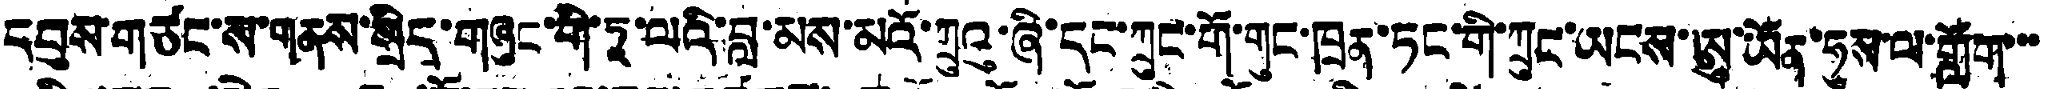དབུས་གཙང་ས་གནས་སྲིད་གཞུང་གི་ཏཱ་ལའི་བླ་མས་མའོ་ཀྲུའུ་ཞི་དང་ཀྲུང་གོ་གུང་ཁྲན་ཏང་གི་ཀྲུང་ཡངས་ཨུ་ཡོན་ཧུས་ལ་གློག་་་
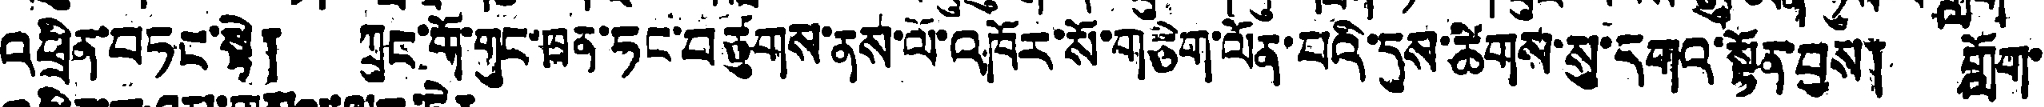འཕྲིན་བཏང་སྟེ། ཀྲུང་གོ་གུང་ཁྲན་ཏང་བཙུགས་ནས་ལོ་འཁོར་སོ་གཅིག་ལོན་པའི་དུས་ཚིགས་སུ་དགའ་སྟོན་བྱས། གློག་
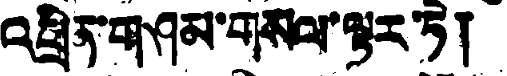འཕྲིན་གཤམ་གསལ་ལྟར་ཏེ།
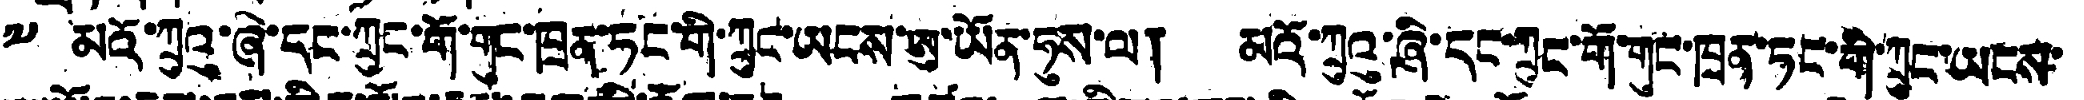༸ མའོ་ཀྲུའུ་ཞི་དང་ཀྲུང་གོ་གུང་ཁྲན་ཏང་གི་ཀྲུང་ཡངས་ཨུ་ཡོན་ཧུས་ལ། མའོ་ཀྲུའུ་ཞི་དང་ཀྲུང་གོ་གུང་ཁྲན་ཏང་གི་ཀྲུང་ཡངས་
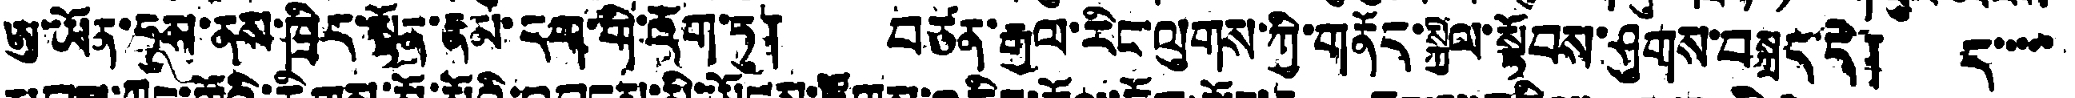ཨུ་ཡོན་ཧུས་ནས་ཁྲིད་སྟོན་རྣམ་དག་གི་འོག་ཏུ། བཙན་རྒྱལ་རིང་ལུགས་ཀྱི་གནོད་སྐྱེལ་སྟོབས་ཤུགས་བསྐྲད་དེ། ད་་་་་་
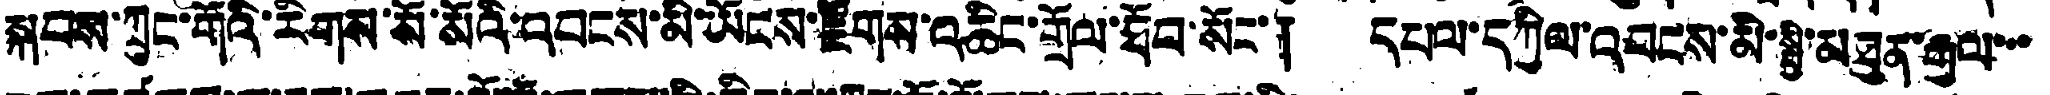སྐབས་ཀྲུང་གོའི་རིགས་སོ་མོའི་བབངས་མི་ཡོངས་རྫོགས་འཆིང་གྲོལ་ཐོབ་སོང་། དཔལ་དཀྱིལ་འབངས་མི་སྤྱི་མཐུན་རྒྱལ་་་
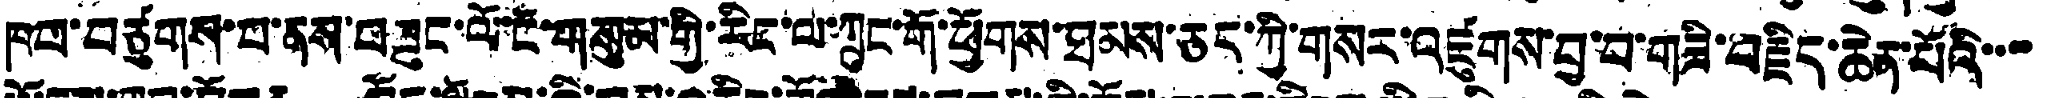ཁབ་བཙུགས་པ་ནས་བཟུང་ལོ་ངོ་གསུམ་གྱི་རིང་ལ་ཀྲུང་གོ་ཕྱོགས་ཐམས་ཅད་ཀྱི་གསར་འཛུགས་བྱ་བ་གཟི་བརྗིད་ཆེན་པོའི་་་་
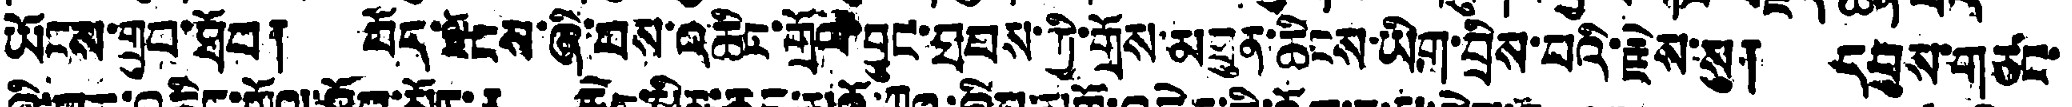ཡོངས་གྲུབ་ཐོབ། བོད་ལྗོངས་ཞི་བས་འཆིང་གྲོལ་བྱུང་ཐབས་ཀྱི་གྲོས་མཐུན་ཆིངས་ཡིག་བྲིས་པའི་རྗེས་སུ། དབུས་གཙང་
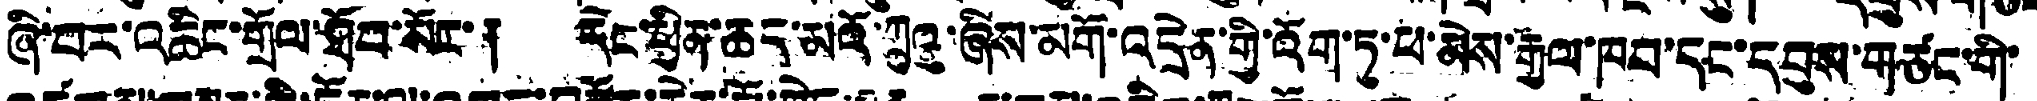ཞི་བར་འཆིང་གྲོལ་ཐོབ་སོང་། དེང་ཕྱིན་ཆད་མའོ་ཀྲུའུ་ཞིས་མགོ་འདྲེན་གྱི་འོག་ཏུ་ཕ་མེས་རྒྱལ་ཁབ་དང་དབུས་གཙང་གི་
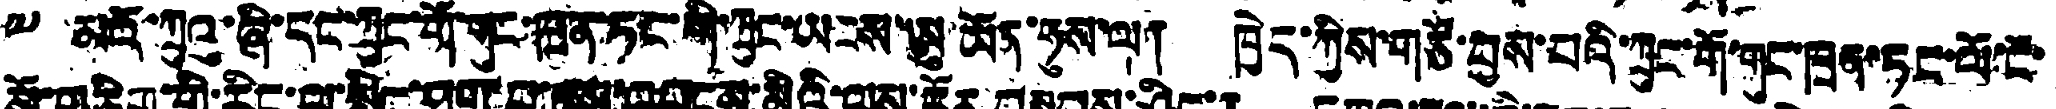༸ མའོ་ཀྲུའུ་ཞི་དང་ཀྲུང་གོ་གུང་ཁྲན་ཏང་གི་ཀྲུང་ཡངས་ཨུ་ཡོན་ཧུས་ལ། ཁྱེད་ཀྱིས་གཙོ་བྱས་པའི་ཀྲུང་གོ་གུང་ཁྲན་ཏང་ལོ་ངོ་
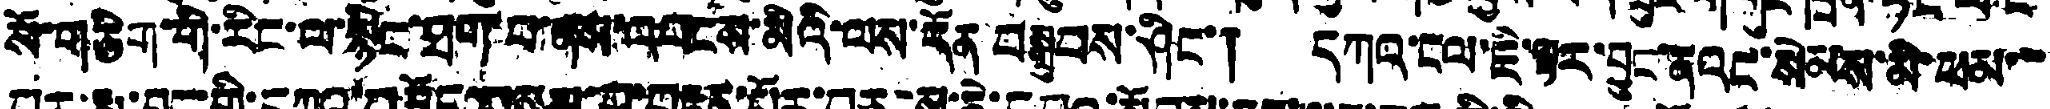སོ་གཅིག་གི་རིང་ལ་སྙིང་ཐག་པ་ནས་འབངས་མིའི་ལས་དོན་བསྒྲུབས་ཤིང་། དཀའ་ངལ་ཇི་ལྟར་བྱུང་ནའང་སེམས་མི་ཕམ་་་
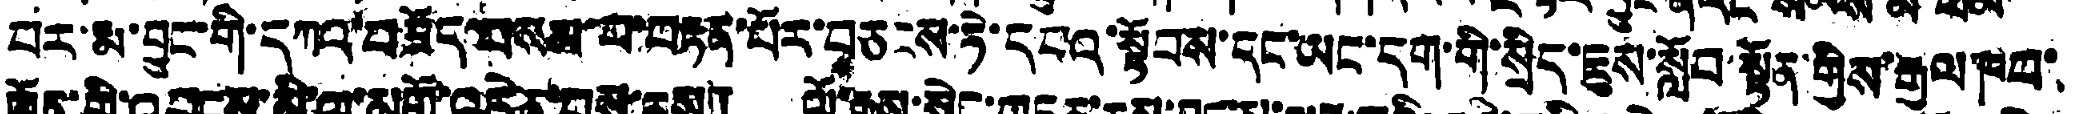བར་རྨ་བྱུང་གི་དཀའ་བཟོད་བསམ་པ་བརྟན་པོར་བཅངས་ཏེ་དཔའ་སྟོབས་དང་ཡང་དག་གི་སྲིད་ཇུས་སློབ་སྟོན་གྱིས་རྒྱལ་ཁབ་
